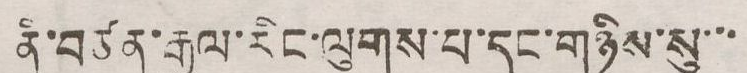ནི་བཙན་རྒྱལ་རིང་ལུགས་པ་དང་གཉིས་སུ་་་
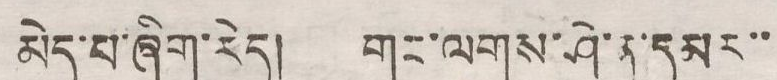མེད་པ་ཞིག་རེད། གང་ལགས་ཤེ་ན་དམར་་
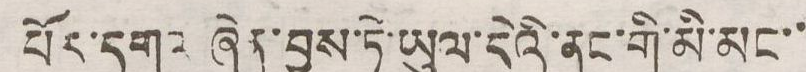པོར་དགའ ཞེན་བྱས་ཏེ་ཡུལ་དེའི་ནང་གི་མི་མང་་
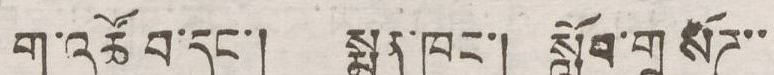ག་འཚོ བ་དང་། སྨན་ཁང་། སློབ་གྲ སོཌ་་
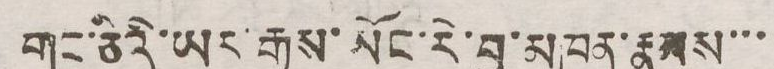གང་ཅིའི་ཡར་རྒྱས་ཡོང་རེ་བྱ་མཁན་རྣམས་་་
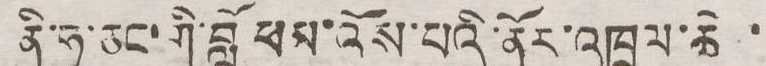ནི་ཧ་ཅང་གི་བློ ཕམ་འོས་པའི་ནོར་འཁྲུལ་ཆེ ་
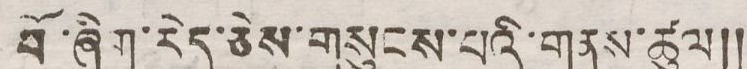བོ་ཞིག་རེད་ཅེས་གསུངས་པའི་གནས་ཚུལ།།
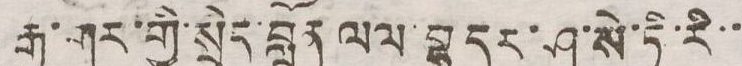རྒྱ་གར་གྱི་སྲིད་བློན ལལ་བྷ་དུར་ཤ་སེ་ཏེ་རི་་
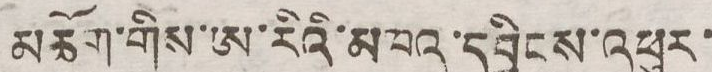མཆོག་གིས་ཨ་རིའི་མཁའ་དབྱིངས་འཕུར་
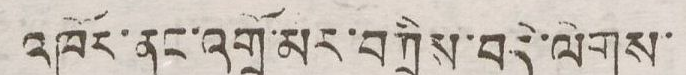འཁོར་ནང་འགྲོ་མར་བཀྲིས་བདེ་ལེགས་
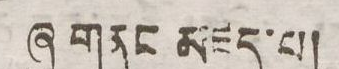ཞུ་གནང་མཛད་པ།
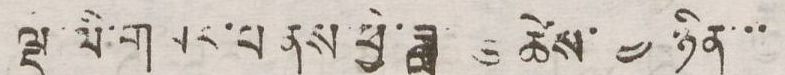ལྡི་ལི་གསར་པ ནས་ཕྱི་ཟླ་ ༦ ཚེས་ ༤ ཉིན་་་
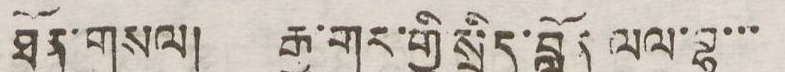ཐོན་གསལ། རྒྱ་གར་གྱི་སྲིད་བློན་ལལ་བྷ་་་
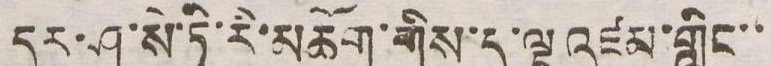དུར་ཤ་སེ་ཏི་རི་མཆོག་གིས་ད་ལྟ འཛམ་གླིང་་
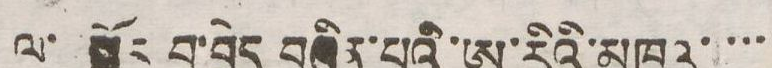ལ་སྐོར་བ་བྱེད་བཞིན་པའི་ཨ་རིའི་མཁའ་་་་
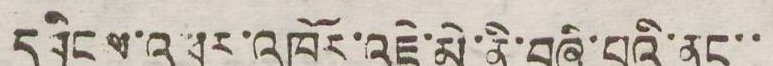དབྱིངས་འཕུར་འཁོར་འཇེ་མེ་ནི་བཞི་པའི་ནང་་
